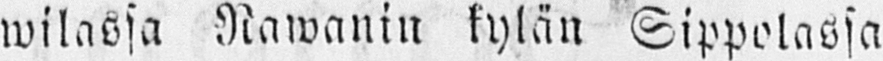wilassa Nawanin kylän Sippolassa
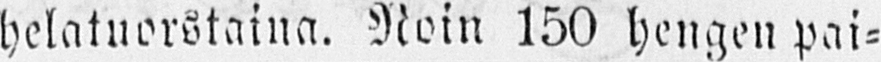helatuorstaina. Noin 150 hengen pai-
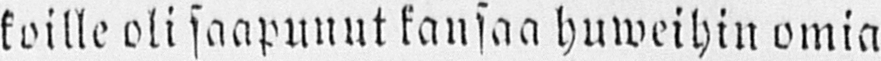koille oli saapunut kansaa huweihin omia
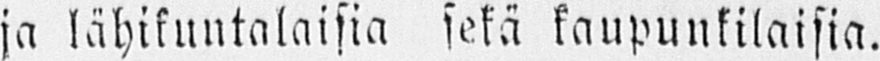ja lähikuntalaisia sekä kaupunkilaisia.
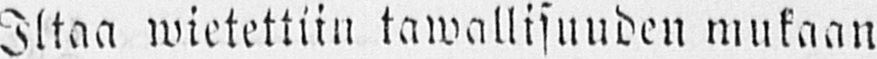Iltaa wietettiin tawallisuuden mukaan
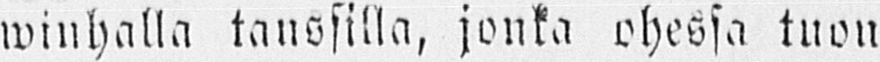winhalla tanssilla, jonka ohessa tuon
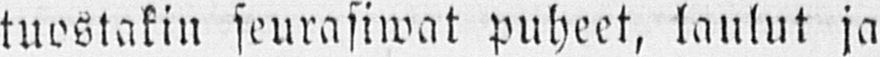tuostakin seurasiwat puheet, laulut ja
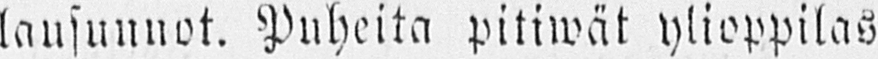lausunnot. Puheita pitiwät ylioppilas
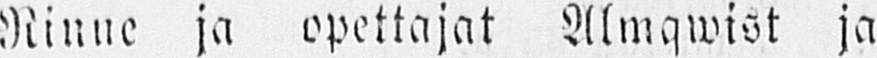Rinne ja opettajat Almqwist ja
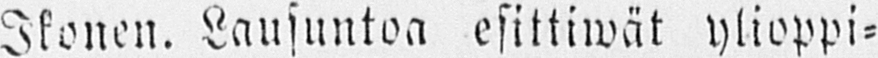Ikonen. Lausuntoa esittiwät ylioppi-
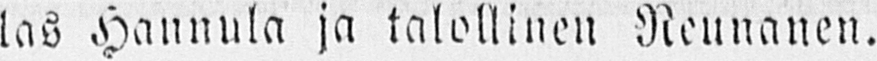las Hannula ja talollinen Neunanen.
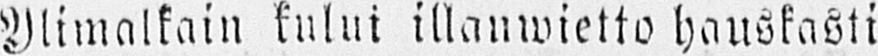Ylimalkain kului illanwietto hauskasti
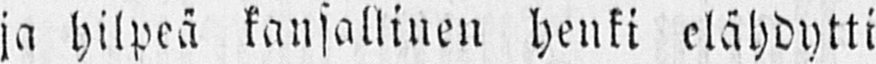ja hilpeä kansallinen henki elähdytti
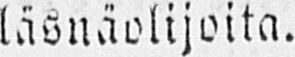läsnäolijoita.
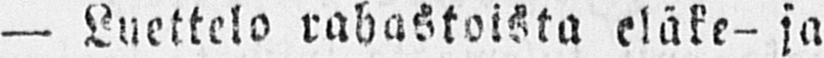— Luettelo rahastoista eläke- ja
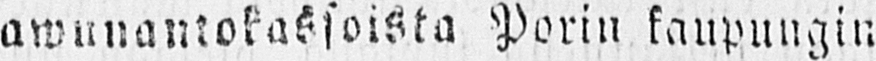awunantokassoista Porin kaupungin
